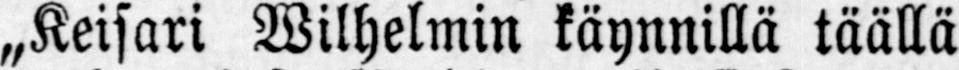„Keisari Wilhelmin käynnillä täällä
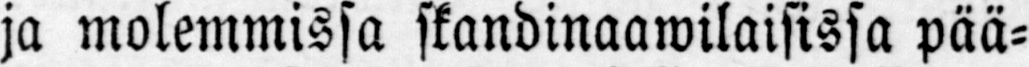ja molemmissa skandinaawilaisissa pää-
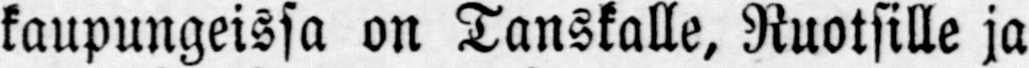kaupungeissa on Tanskalle, Ruotsille ja
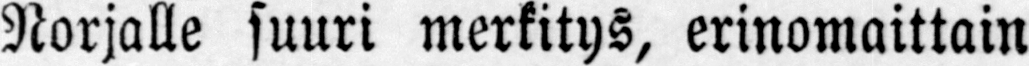Norjalle suuri merkitys, erinomaittain
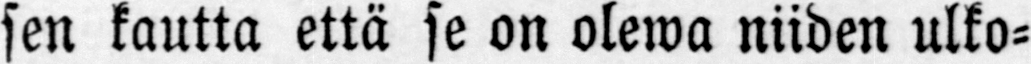sen kautta että se on olewa niiden ulko-
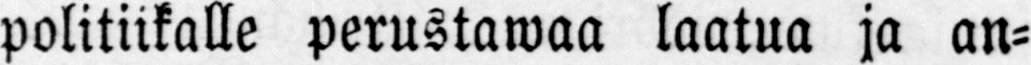politiikalle perustawaa laatua ja an-
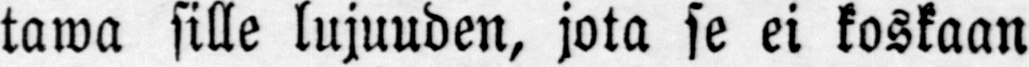tawa sille lujuuden, jota se ei koskaan
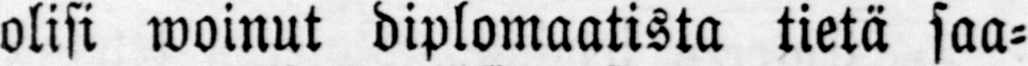olisi woinut diplomaatista tietä saa-
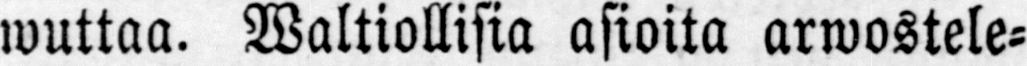wuttaa. Waltiollisia asioita arwostele-
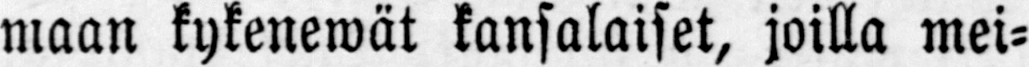maan kykenewät kansalaiset, joilla mei-
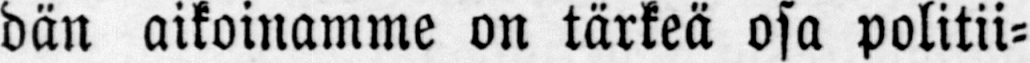dän aikoinamme on tärkeä osa politii-
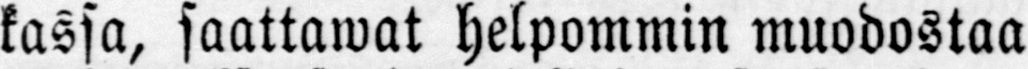kassa, saattawat helpommin muodostaa
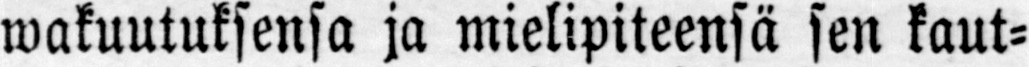wakuutuksensa ja mielipiteensä sen kaut-
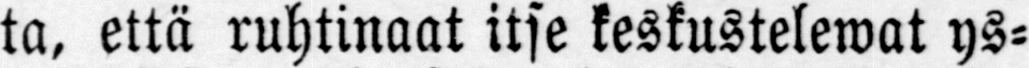ta, että ruhtinaat itse keskustelewat ys-
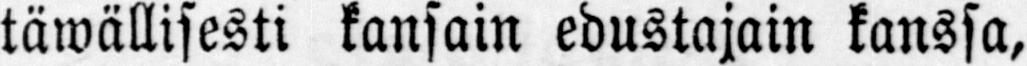täwällisesti kansain edustajain kanssa,
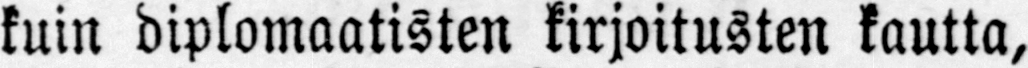kuin diplomaatisten kirjoitusten kautta,
